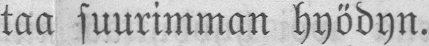taa suurimman hyödyn.
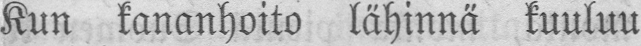Kun kananhoito lähinnä kuuluu
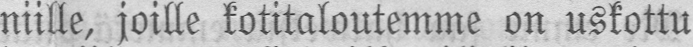niille, joille kotitaloutemme on uskottu
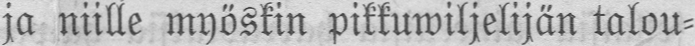ja niille myöskin pikkuwiljelijän talou-
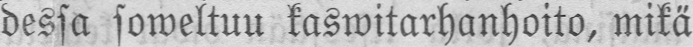dessa soweltuu kaswitarhanhoito, mikä
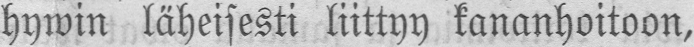hywin läheisesti liittyy kananhoitoon,
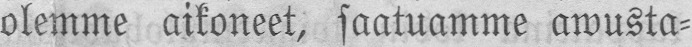olemme aikoneet, saatuamme awusta-
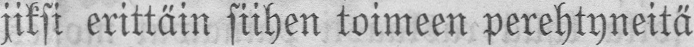jiksi erittäin siihen toimeen perehtyneitä
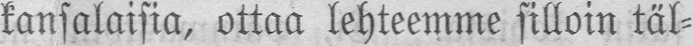kansalaisia, ottaa lehteemme silloin täl-
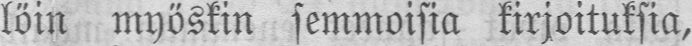löin myöskin semmoisia kirjoituksia,
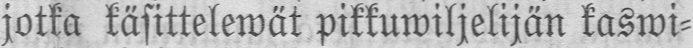jotka käsittelewät pikkuwiljelijän kaswi-
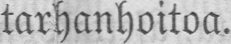tarhanhoitoa.
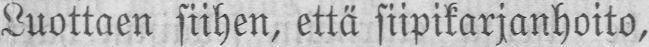Luottaen siihen, että siipikarjanhoito,
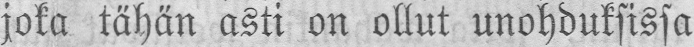joka tähän asti on ollut unohduksissa
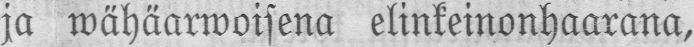ja wähäarwoisena elinkeinonhaarana,
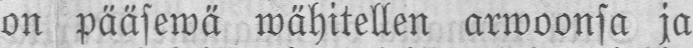on pääsewä wähitellen arwoonsa ja
